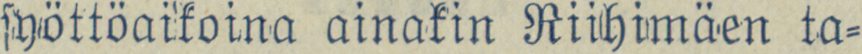syöttöaikoina ainakin Riihimäen ta-
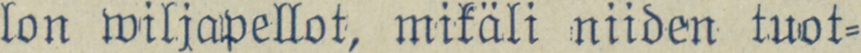lon wiljapellot, mikäli niiden tuot-
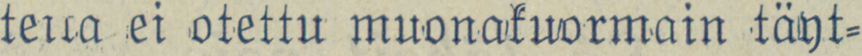terra ei otettu muonakuormain täyt-
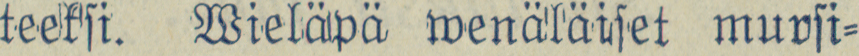teeksi. Wieläpä wenäläiset mursi-
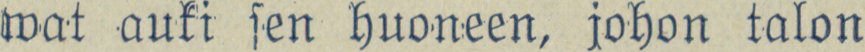wat auki sen huoneen, johon talon
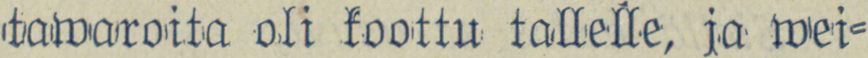tawaroita oli koottu tallelle, ja wei-
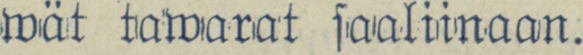wät tawarat saaliinaan.
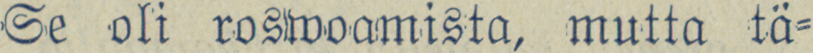Se oli roswo amista, mutta tä-
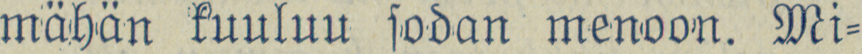mähän kuuluu sodan menoon. Mi-
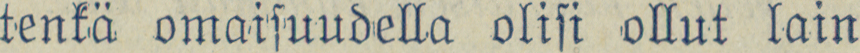tenkä omaisuudella olisi ollut lain
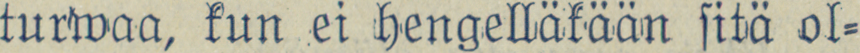turwaa, kun ei hengelläkään sitä ol-
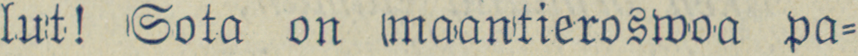lut! Sota on maantieroswoa pa-
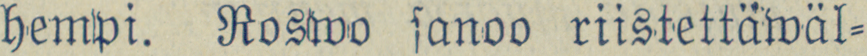hempi. Roswo sanoo riistettäwäl-
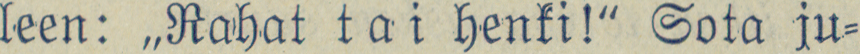leen: „Rahat tai henki!" Sota ju-
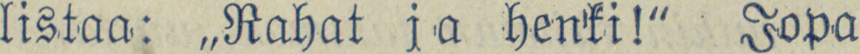listaa: „Rahat ja henki!" Jopa
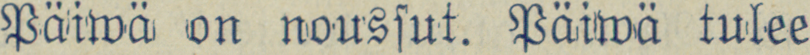Päiwä on noussut. Päiwä tulee
